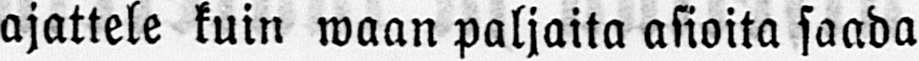ajattele kuin waan paljaita asioita saada
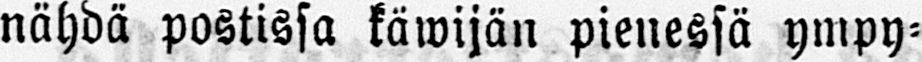nähdä postissa käwijän pienessä ympy-
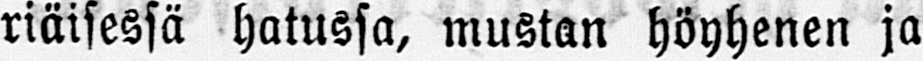riäisessä hatussa, mustan höyhenen ja
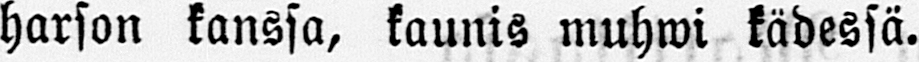harson kanssa, kaunis muhwi kädessä.
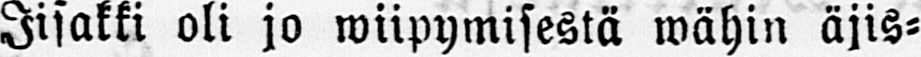Iisakki oli jo wiipymisestä wähin äjis-
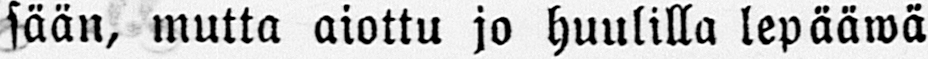sään, mutta aiottu jo huulilla lepääwä
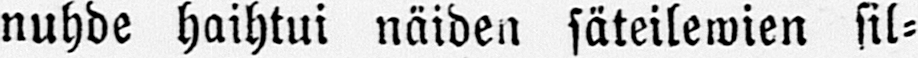nuhde haihtui näiden säteilewien sil-
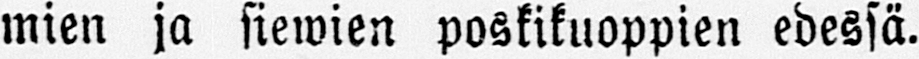mien ja siewien poskikuoppien edessä.
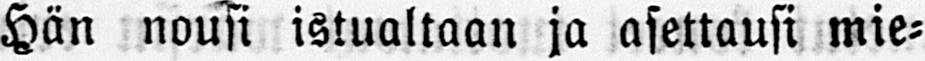Hän nousi istualtaan ja asettausi mie-
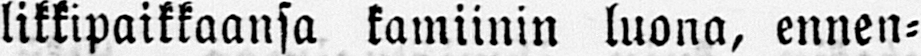likkipaikkaansa kamiinin luona, ennen-
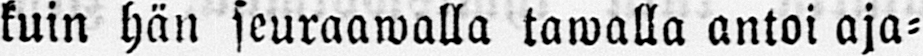kuin hän seuraawalla tawalla antoi aja-
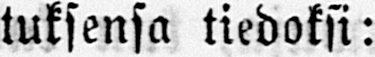tuksensa tiedoksi:
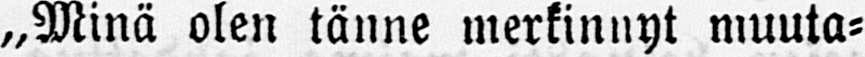„Minä olen tänne merkinnyt muuta-
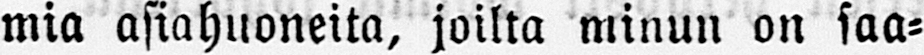mia asiahuoneita, joilta minun on saa-
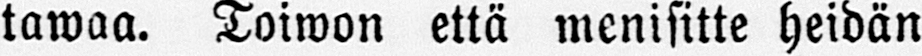tawaa. Toiwon että menisitte heidän
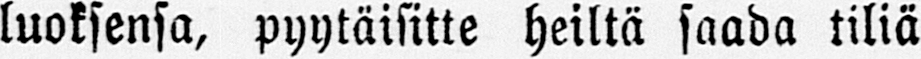luoksensa, pyytäisitte heiltä saada tiliä
